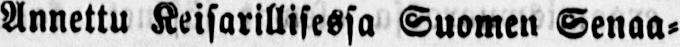Annettu Keisarillisessa Suomen Senaa-
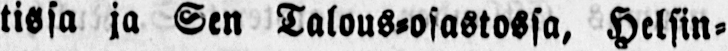tissa ja Sen Talous-osastossa. Helsin-
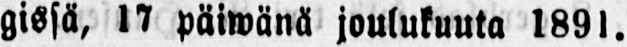gissä, 17 päiwänä joulukuuta 1891.
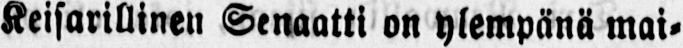Keisarillinen Senaatti on ylempänä mai-
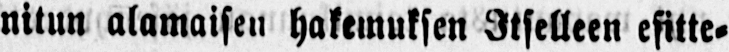nitun alamaisen hakemuksen Itselleen esitte-
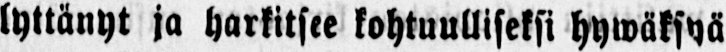lyttänyt ja harkitsee kohtuulliseksi hywäksyä
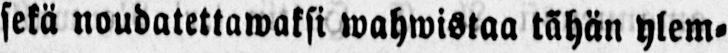sekä noudatettawaksi wahwistaa tähän ylem-
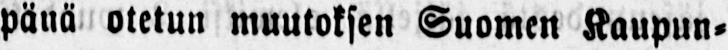pänä otetun muutoksen Suomen Kaupun-
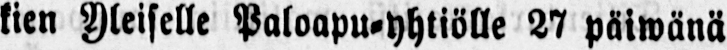kien Yleiselle Paloapu-yhtiölle 27 päiwänä
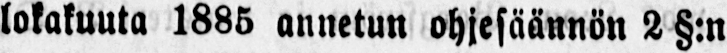lokakuuta 1885 annetun ohjesäännön 2§:n
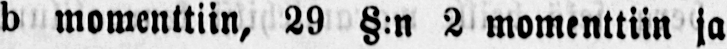b momenttiin, 29 -§:n 2 momenttiin ja
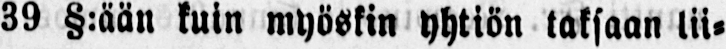39 §:ään kuin myöskin yhtiön taksaan lii-
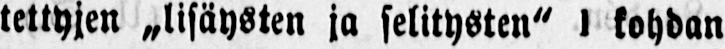tettyjen »lisäysten ja selitysten" 1 kohdan
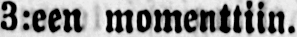3:een momenttiin.
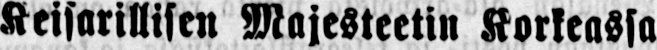Keisarillisen Majesteetin Korkeassa
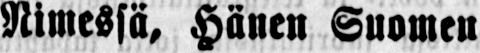Nimessä, Hänen Suomen
